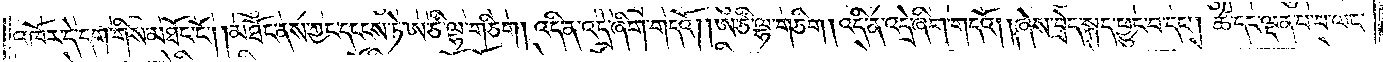འཁོར་དེ་དག་གིས་མཐོང་ངོ༌། །མཐོང་ནས་ཀྱང་དངངས་ཏེ་ཨ་ཙི་ལྷ་གཅིག །འདི་ན་འདྲེ་ཞིག་གདའོ། །ཨ་ཙི་ལྷ་གཅིག །འདི་ན་འདྲེ་ཞིག་གདའོ། །ཞེས་བྲེད་སྐད་ཕྱུང་བ་དང༌། ཚེ་དང་ལྡན་པ་བ་ལང་
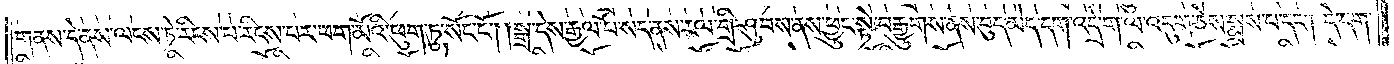གནས་དེ་ནས་ལངས་ཏེ་རིངས་པ་རིངས་པར་ཕག་མོའི་ཕུག་ཏུ་སོང་ངོ༌། །སྒྲ་དེས་རྒྱལ་པོ་སད་ནས་རལ་གྲི་ཤུབས་ནས་ཕྱུང་སྟེ་བརྒྱུགས་ནས་བུད་མེད་དག་འདྲེ་ག་ལ་འདུག་ཅེས་སྨྲས་པ་དང༌། དེ་དག་
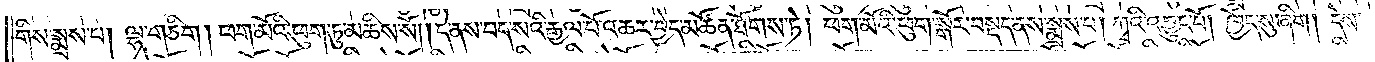གིས་སྨྲས་པ། ལྷ་གཅིག །ཕག་མོའི་ཕུག་ཏུ་མཆིས་སོ། །དེ་ནས་བད་སའི་རྒྱལ་པོ་འཆར་བྱེད་མཚོན་ཐོགས་ཏེ། ཕག་མོའི་ཕུག་སྒོར་བསྡད་ནས་སྨྲས་པ། ཀྭའི་འབྱུང་པོ། ཁྱོད་སུ་ཞིག །དེས་
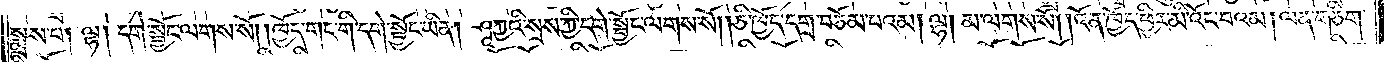སྨྲས་པ། ལྷ། དགེ་སྦྱོང་ལགས་སོ། །ཁྱོད་གང་གི་དགེ་སྦྱོང་ཡིན། ཤཱཀྱའི་སྲས་ཀྱི་དགེ་སྦྱོང་ལགས་སོ། །ཅི་ཁྱོད་དགྲ་བཅོམ་པའམ། ལྷ། མ་ལགས་སོ། །འོ་ན་ཁྱོད་ཕྱིར་མི་འོང་བའམ། ལན་གཅིག་
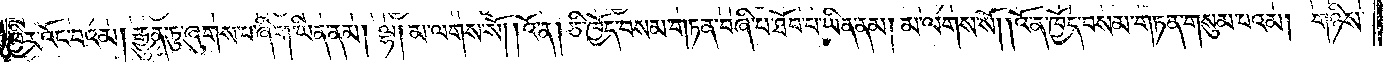ཕྱིར་འོང་བའམ། རྒྱུན་ཏུ་ཞུགས་པ་ཞིག་ཡིན་ནམ། ལྷ། མ་ལགས་སོ། །འོ་ན། ཅི་ཁྱོད་བསམ་གཏན་བཞི་པ་ཐོབ་པ་ཡིན་ནམ། མ་ལགས་སོ། །འོ་ན་ཁྱོད་བསམ་གཏན་གསུམ་པའམ། གཉིས་
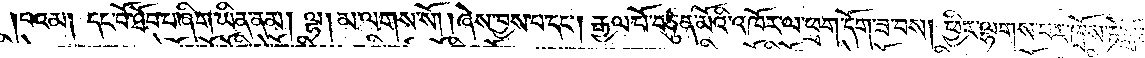པའམ། དང་པོ་ཐོབ་པ་ཞིག་ཡིན་ནམ། ལྷ། མ་ལགས་སོ། །ཞེས་བྱས་པ་དང༌། རྒྱལ་པོ་བཙུན་མོའི་འཁོར་ལ་ཕྲག་དོག་ཟ་བས། ཕྱིར་ལྷགས་པར་ཁྲོས་ཏེ་བློན་པོ་
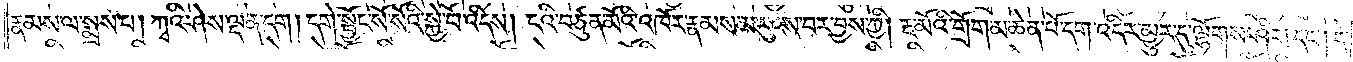རྣམས་ལ་སྨྲས་པ། ཀྭའི་ཤེས་ལྡན་དག །དགེ་སྦྱོང་སོ་སོའི་སྐྱེ་བོ་འདིས། ངའི་བཙུན་མོའི་འཁོར་རྣམས་མ་རུངས་པར་བྱས་ཀྱི། རྔ་མོའི་གྲོག་མ་ཆེན་པོ་དག་འདིར་མྱུར་དུ་ལྷོགས་ཤིག་དང༌། དེ་
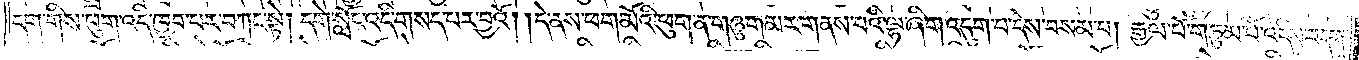དག་གིས་ཕུག་འདི་ཁྱབ་པར་བཀང་སྟེ། དགེ་སློང་འདི་གསད་པར་བྱའོ། །དེ་ནས་ཕག་མོའི་ཕུག་ན་གཉུག་མར་གནས་པའི་ལྷ་ཞིག་འདུག་པ་དེས་བསམ་པ། རྒྱལ་པོ་གཏུམ་པོ་འདིས་བདག་
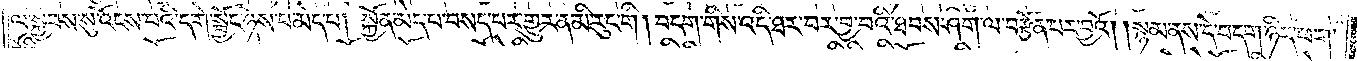ལ་སྐྱབས་སུ་འོངས་པའི་དགེ་སྦྱོང་ཉེས་པ་མེད་པ། སྐྱོན་མེད་པ་བསད་པར་གྱུར་ན་མི་རུང་གི །བདག་གིས་འདི་ཐར་བར་བྱ་བའི་ཐབས་ཤིག་ལ་བརྩོན་པར་བྱའོ། །སྙམ་ནས་དེ་བདག་ཉིད་ཕག་
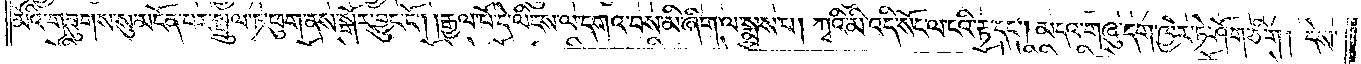མོའི་གཟུགས་སུ་མངོན་པར་སྤྲུལ་ཏེ་ཕུག་ནས་སྒོར་བྱུང་ངོ༌། །རྒྱལ་པོ་དེ་ལིངས་ལ་དགའ་བས་མི་ཞིག་ལ་སྨྲས་པ། ཀྭའི་མི་འདི་སོང་ལ་ངའི་རྟ་དང༌། མདའ་གཞུ་དག་ཁྱེར་ཏེ་ཤོག་ཅིག །དེས་
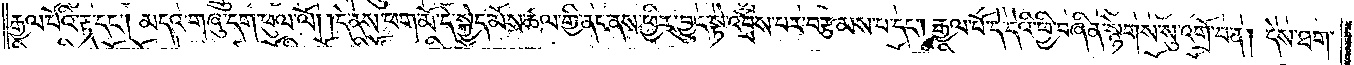རྒྱལ་པོའི་རྟ་དང༌། མདའ་གཞུ་དག་ཕུལ་ལོ། །དེ་ནས་ཕག་མོ་དེ་སྐྱེད་མོས་ཚལ་གྱི་ནང་ནས་ཕྱིར་བྱུང་སྟེ་འབྲོས་པར་བརྩམས་པ་དང༌། རྒྱལ་པོ་དེ་དེའི་ཕྱི་བཞིན་སྙེགས་སུ་འགྲོ་བ་ན། དེས་ཐག་
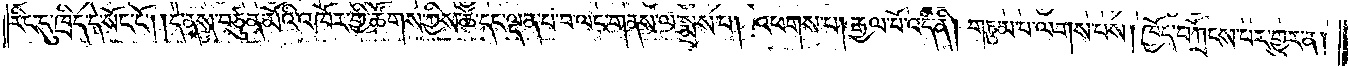རིང་དུ་ཁྲིད་དེ་སོང་ངོ༌། །དེ་ནས་བཙུན་མོའི་འཁོར་གྱི་ཚོགས་ཀྱིས་ཚེ་དང་ལྡན་པ་བ་ལང་གནས་ལ་སྨྲས་པ། འཕགས་པ། རྒྱལ་པོ་འདི་ནི། གཏུམ་པ་ལགས་པས། ཁྱོད་བཀྲོངས་པར་གྱུར་ན།
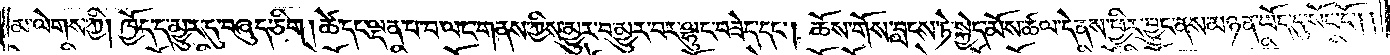མ་ལེགས་ཀྱི། ཁྱོད་ད་མྱུར་དུ་བཞུད་ཅིག །ཚེ་དང་ལྡན་པ་བ་ལང་གནས་ཀྱིས་མྱུར་བ་མྱུར་བར་ལྷུང་བཟེད་དང༌། ཆོས་གོས་བླངས་ཏེ་སྐྱེད་མོས་ཚལ་དེ་ནས་ཕྱིར་བྱུང་ནས་མཉན་ཡོད་དུ་སོང་ངོ༌།
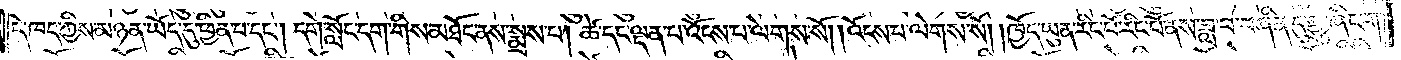དེ་ཁང་ཀྱིས་མཉན་ཡོད་དུ་ཕྱིན་པ་དང༌། དགེ་སློང་དག་གིས་མཐོང་ནས་སྨྲས་པ། ཚེ་དང་ལྡན་པ་འོངས་པ་ལེགས་སོ། །འོངས་པ་ལེགས་སོ། །ཁྱོད་ཡུན་རིང་པོ་རིང་པོ་ནས་ཟླ་བ་བཞིན་དུ་རྒྱུ་ཞིང་ག་
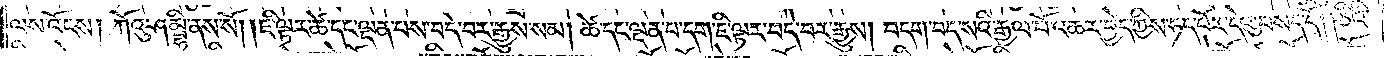ལས་འོངས། ཀོའུ་ཤམྦྷི་ནས་སོ། །ཇི་ལྟར་ཚེ་དང་ལྡན་པས་བདེ་བར་རྒྱུས་སམ། ཚེ་དང་ལྡན་པ་དག་ཇི་ལྟར་བདེ་བར་རྒྱུས། བདག་བད་སའི་རྒྱལ་པོ་འཆར་བྱེད་ཀྱིས་ཧད་པོར་དེའུ་བསད་དོ། །ཅིའི་
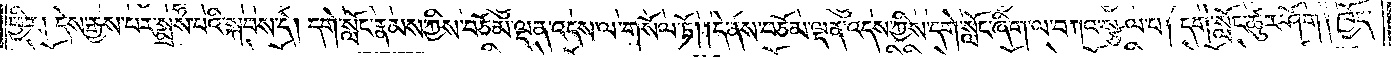ཕྱིར། དེས་རྒྱས་པར་སྨྲས་པའི་སྐབས་དེ། དགེ་སློང་རྣམས་ཀྱིས་བཅོམ་ལྡན་འདས་ལ་གསོལ་ཏོ། །དེ་ནས་བཅོམ་ལྡན་འདས་ཀྱིས་དགེ་སློང་ཞིག་ལ་བཀའ་སྩལ་པ། དགེ་སློང་ཚུར་ཤོག །ཁྱོད་
